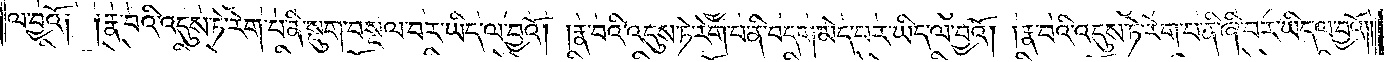ལ་བྱའོ༏ ༏རྣ་བའི་འདུས་ཏེ་རེག་པ་ནི་སྡུག་བསྔལ་བར་ཡིད་ལ་བྱའོ། །རྣ་བའི་འདུས་ཏེ་རེག་པ་ནི་བདག་མེད་པར་ཡིད་ལ་བྱའོ། །རྣ་བའི་འདུས་ཏེ་རེག་པ་ནི་ཞི་བར་ཡིད་ལ་བྱའོ། །
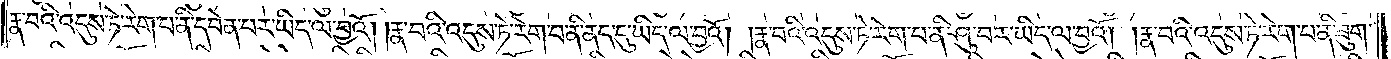རྣ་བའི་འདུས་ཏེ་རེག་པ་ནི་དབེན་པར་ཡིད་ལ་བྱའོ། །རྣ་བའི་འདུས་ཏེ་རེག་པ་ནི་ནད་དུ་ཡིད་ལ་བྱའོ། །རྣ་བའི་འདུས་ཏེ་རེག་པ་ནི་ཤུ་བར་ཡིད་ལ་བྱའོ། །རྣ་བའི་འདུས་ཏེ་རེག་པ་ནི་ཟུག་
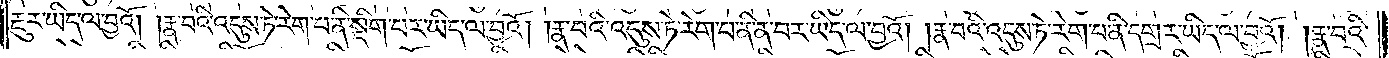རྔུར་ཡིད་ལ་བྱའོ། །རྣ་བའི་འདུས་ཏེ་རེག་པ་ནི་སྡིག་པར་ཡིད་ལ་བྱའོ། །རྣ་བའི་འདུས་ཏེ་རེག་པ་ནི་ན་བར་ཡིད་ལ་བྱའོ། །རྣ་བའི་འདུས་ཏེ་རེག་པ་ནི་དགྲར་ཡིད་ལ་བྱའོ། །རྣ་བའི་
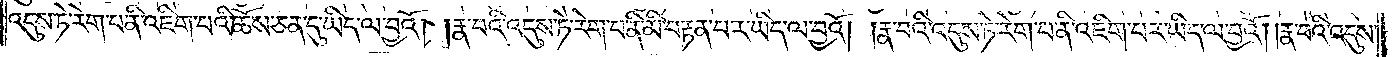འདུས་ཏེ་རེག་པ་ནི་འཇིག་པའི་ཆོས་ཅན་དུ་ཡིད་ལ་བྱའོ། །རྣ་བའི་འདུས་ཏེ་རེག་པ་ནི་མི་བརྟན་པར་ཡིད་ལ་བྱའོ། །རྣ་བའི་འདུས་ཏེ་རེག་པ་ནི་འཇིག་པར་ཡིད་ལ་བྱའོ། །རྣ་བའི་འདུས་
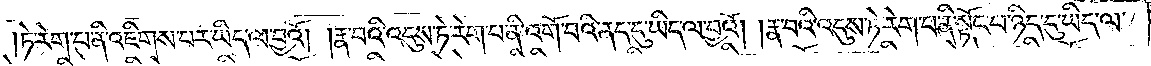ཏེ་རེག་པ་ནི་འཇིགས་པར་ཡིད་ལ་བྱའོ། །རྣ་བའི་འདུས་ཏེ་རེག་པ་ནི་འགོ་བའི་ནད་དུ་ཡིད་ལ་བྱའོ། །རྣ་བའི་འདུས་ཏེ་རེག་པ་ནི་སྟོང་པ་ཉིད་དུ་ཡིད་ལ་
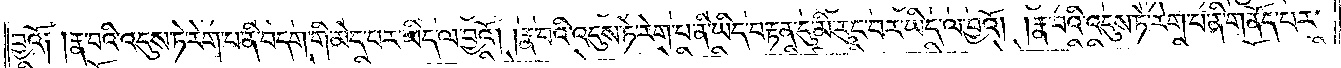བྱའོ༏ ༏རྣ་བའི་འདུས་ཏེ་རེག་པ་ནི་བདག་གི་མེད་པར་ཡིད་ལ་བྱའོ། །རྣ་བའི་འདུས་ཏེ་རེག་པ་ནི་ཡིད་བརྟན་དུ་མི་རུང་བར་ཡིད་ལ་བྱའོ། །རྣ་བའི་འདུས་ཏེ་རེག་པ་ནི་གནོད་པར་
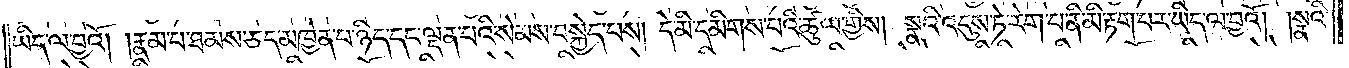ཡིད་ལ་བྱའོ། །རྣམ་པ་ཐམས་ཅད་མཁྱེན་པ་ཉིད་དང་ལྡན་པའི་སེམས་བསྐྱེད་པས། དེ་མི་དམིགས་པའི་ཚུལ་གྱིས། སྣའི་འདུས་ཏེ་རེག་པ་ནི་མི་རྟག་པར་ཡིད་ལ་བྱའོ། །སྣའི་
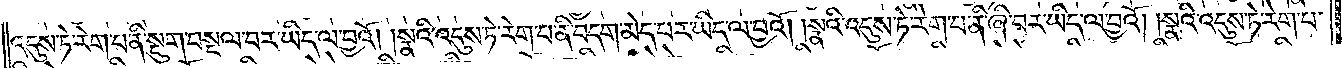འདུས་ཏེ་རེག་པ་ནི་སྡུག་བསྔལ་བར་ཡིད་ལ་བྱའོ། །སྣའི་འདུས་ཏེ་རེག་པ་ནི་བདག་མེད་པར་ཡིད་ལ་བྱའོ། །སྣའི་འདུས་ཏེ་རེག་པ་ནི་ཞི་བར་ཡིད་ལ་བྱའོ། །སྣའི་འདུས་ཏེ་རེག་པ་
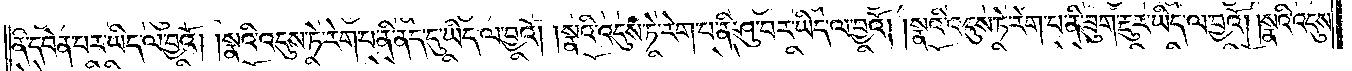ནི་དབེན་པར་ཡིད་ལ་བྱའོ། །སྣའི་འདུས་ཏེ་རེག་པ་ནི་ནད་དུ་ཡིད་ལ་བྱའོ། །སྣའི་འདུས་ཏེ་རེག་པ་ནི་ཤུ་བར་ཡིད་ལ་བྱའོ། །སྣའི་འདུས་ཏེ་རེག་པ་ནི་ཟུག་རྔུར་ཡིད་ལ་བྱའོ། །སྣའི་འདུས་
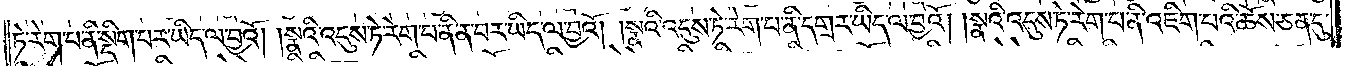ཏེ་རེག་པ་ནི་སྡིག་པར་ཡིད་ལ་བྱའོ། །སྣའི་འདུས་ཏེ་རེག་པ་ནི་ན་བར་ཡིད་ལ་བྱའོ། །སྣའི་འདུས་ཏེ་རེག་པ་ནི་དགྲར་ཡིད་ལ་བྱའོ། །སྣའི་འདུས་ཏེ་རེག་པ་ནི་འཇིགས་པའི་ཆོས་ཅན་དུ་
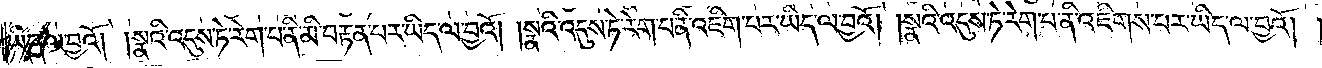ཡིད་ལ་བྱའོ། །སྣའི་འདུས་ཏེ་རེག་པ་ནི་མི་བརྟན་པར་ཡིད་ལ་བྱའོ། །སྣའི་འདུས་ཏེ་རེག་པ་ནི་འཇིག་པར་ཡིད་ལ་བྱའོ། །སྣའི་འདུས་ཏེ་རེག་པ་ནི་འཇིགས་པར་ཡིད་ལ་བྱའོ། །
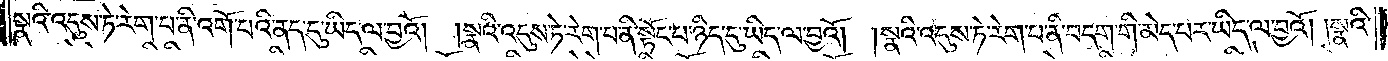སྣའི་འདུས་ཏེ་རེག་པ་ནི་འགོ་བའི་ནད་དུ་ཡིད་ལ་བྱའོ། །སྣའི་འདུས་ཏེ་རེག་པ་ནི་སྟོང་པ་ཉིད་དུ་ཡིད་ལ་བྱའོ། །སྣའི་འདུས་ཏེ་རེག་པ་ནི་བདག་གི་མེད་པར་ཡིད་ལ་བྱའོ། །སྣའི་
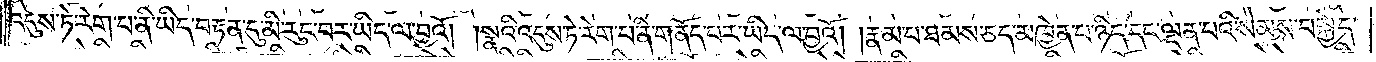འདུས་ཏེ་རེག་པ་ནི་ཡིད་བརྟན་དུ་མི་རུང་བར་ཡིད་ལ་བྱའོ། །སྣའི་འདུས་ཏེ་རེག་པ་ནི་གནོད་པར་ཡིད་ལ་བྱའོ། །རྣམ་པ་ཐམས་ཅད་མཁྱེན་པ་ཉིད་དང་ལྡན་པའི་སེམས་བསྐྱེད་
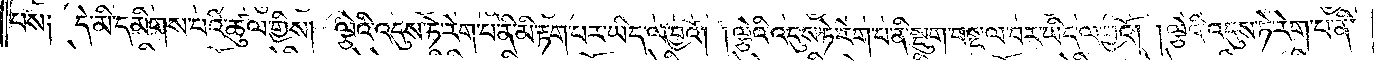པས། དེ་མི་དམིགས་པའི་ཚུལ་གྱིས། ལྕེའི་འདུས་ཏེ་རེག་པ་ནི་མི་རྟག་པར་ཡིད་ལ་བྱའོ། །ལྕེའི་འདུས་ཏེ་རེག་པ་ནི་སྡུག་བསྔལ་བར་ཡིད་ལ་བྱའོ། །ལྕེའི་འདུས་ཏེ་རེག་པ་ནི་
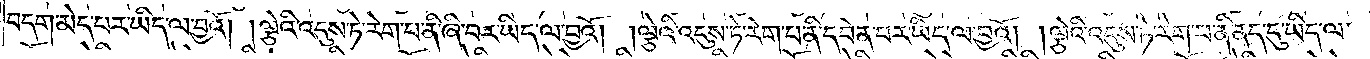བདག་མེད་པར་ཡིད་ལ་བྱའོ། །ལྕེའི་འདུས་ཏེ་རེག་པ་ནི་ཞི་བར་ཡིད་ལ་བྱའོ། །ལྕེའི་འདུས་ཏེ་རེག་པ་ནི་དབེན་པར་ཡིད་ལ་བྱའོ། །ལྕེའི་འདུས་ཏེ་རེག་པ་ནི་ནད་དུ་ཡིད་ལ་
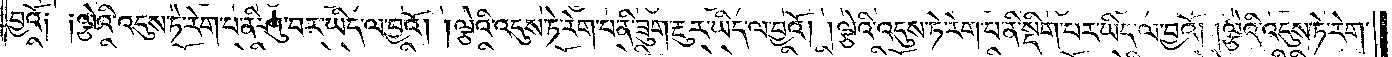བྱའོ༏ ༏ལྕེའི་འདུས་ཏེ་རེག་པ་ནི་ཤུ་བར་ཡིད་ལ་བྱའོ། །ལྕེའི་འདུས་ཏེ་རེག་པ་ནི་ཟུག་རྔུར་ཡིད་ལ་བྱའོ། །ལྕེའི་འདུས་ཏེ་རེག་པ་ནི་སྡིག་པར་ཡིད་ལ་བྱའོ། །ལྕེའི་འདུས་ཏེ་རེག་
